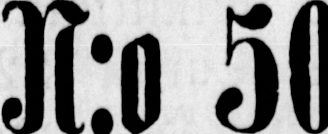N:o 50.
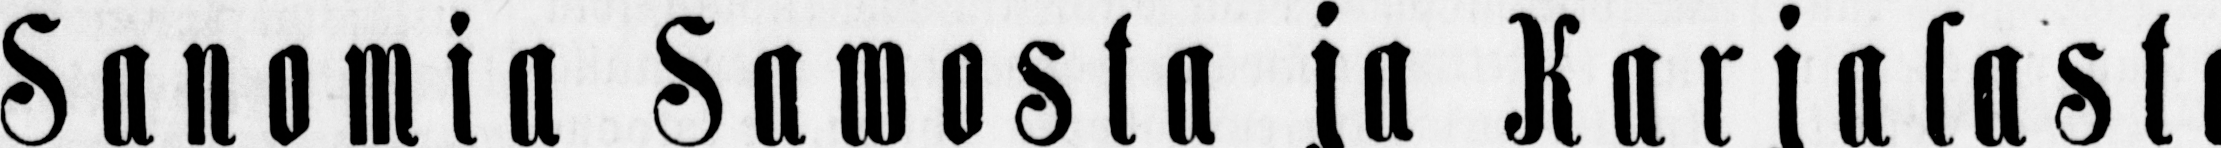Sanomia Sawosta ja Karjalasta.
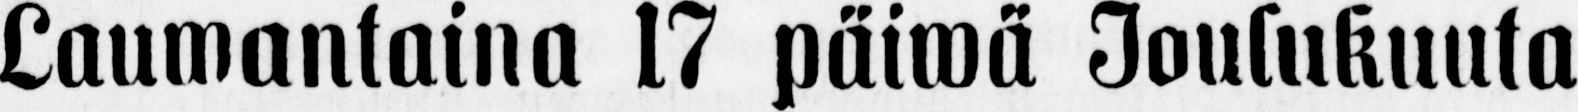Lauwantaina l7 pä iwä Joulukuuta
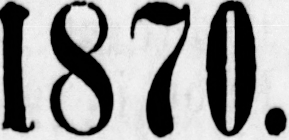1870.
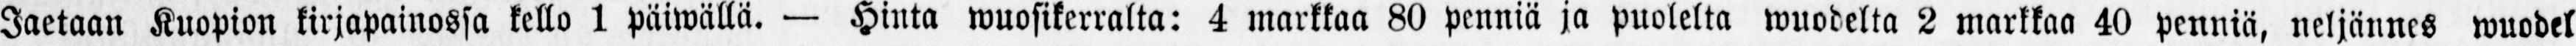Jaetaan Kuopion kirjapainossa kello 1 päiwällä. — Hinta wuosikerralta: 4 markkaa 80 penniä ja puolelta wuodelta 2 markkaa 40 penniä, neljännes wuodel
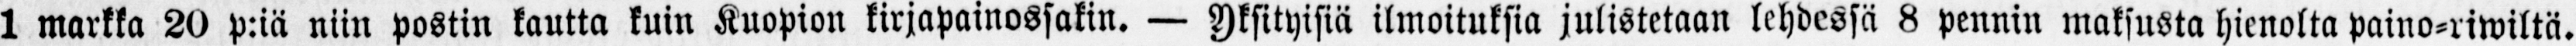1 markka 20 p:iä niin postin kautta kuin Kuopion kirjapainossakin. — Yksityisiä ilmoituksia julistetaan lehdessä 8 pennin maksusta hienolta paino-riwiltä.
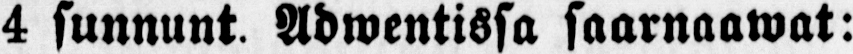4 sunnunt. Adwentissa saarnaawat:
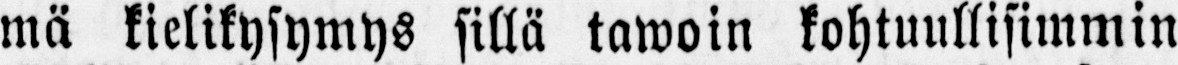mä kielikysymys sillä tawoin kohtuullisimmin
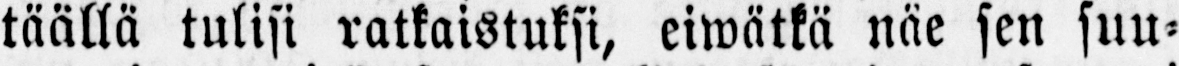täällä tulisi ratkaistuksi, eiwätkä näe sen suu-
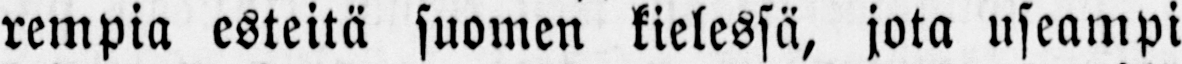rempia esteitä suomen kielessä, jota useampi
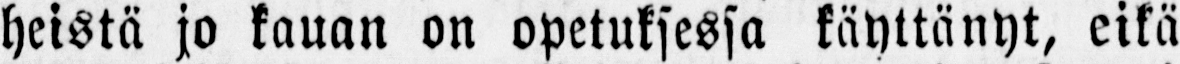heistä jo kauan on opetuksessa käyttänyt, eikä
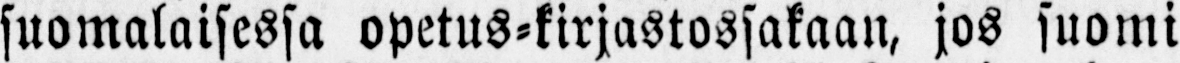suomalaisessa opetus-kirjastossakaan, jos suomi
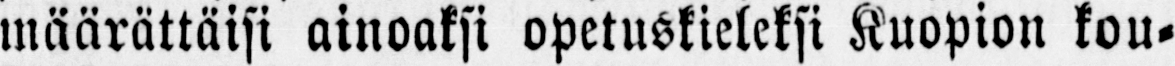määrättäisi ainoaksi opetuskieleksi Kuopion kou-
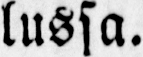lussa.
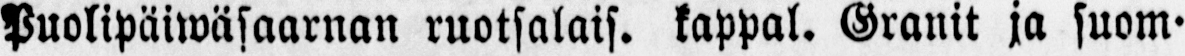Puolipäiwäsaarnan ruotsalais, kappal. Granit ja suom-
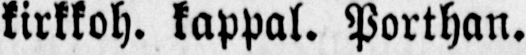kirkkoh. kappal. Porthan.
